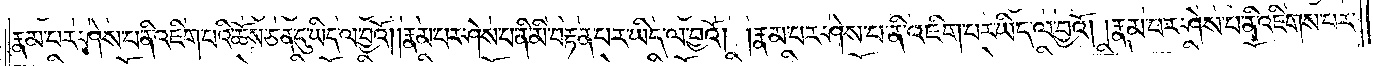རྣམ་པར་ཤེས་པ་ནི་འཇིག་པའི་ཆོས་ཅན་དུ་ཡིད་ལ་བྱའོ། །རྣམ་པར་ཤེས་པ་ནི་མི་བརྟན་པར་ཡིད་ལ་བྱའོ། །རྣམ་པར་ཤེས་པ་ནི་འཇིག་པར་ཡིད་ལ་བྱའོ། །རྣམ་པར་ཤེས་པ་ནི་འཇིགས་པར་
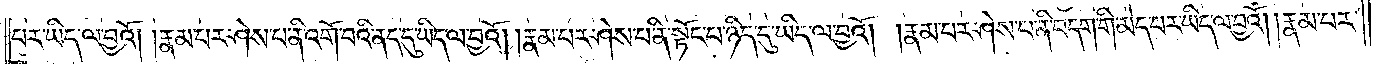པར་ཡིད་ལ་བྱའོ། །རྣམ་པར་ཤེས་པ་ནི་འགོ་བའི་ནད་དུ་ཡིད་ལ་བྱའོ། །རྣམ་པར་ཤེས་པ་ནི་སྟོང་པ་ཉིད་དུ་ཡིད་ལ་བྱའོ། །རྣམ་པར་ཤེས་པ་ནི་བདག་གི་མེད་པར་ཡིད་ལ་བྱའོ། །རྣམ་པར་
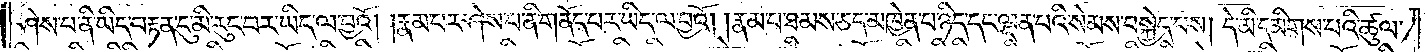ཤེས་པ་ནི་ཡིད་བརྟན་དུ་མི་རུང་བར་ཡིད་ལ་བྱའོ། །རྣམ་པར་ཤེས་པ་ནི་གནོད་པར་ཡིད་ལ་བྱའོ། །རྣམ་པ་ཐམས་ཅད་མཁྱེན་པ་ཉིད་དང་ལྡན་པའི་སེམས་བསྐྱེད་པས། དེ་མི་དམིགས་པའི་ཚུལ་
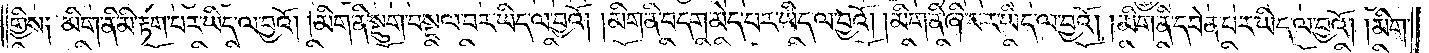གྱིས༏ མིག་ནི་མི་རྟག་པར་ཡིད་ལ་བྱའོ། །མིག་ནི་སྡུག་བསྔལ་བར་ཡིད་ལ་བྱའོ། མིག་ནི་བདག་མེད་པར་ཡིད་ལ་བྱའོ། །མིག་ནི་ཞི་བར་ཡིད་ལ་བྱའོ། །མིག་ནི་དབེན་པར་ཡིད་ལ་བྱའོ། །མིག་
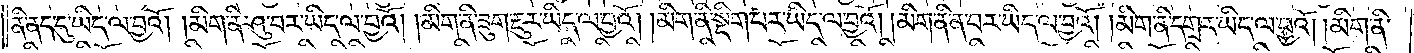ནི་ནད་དུ་ཡིད་ལ་བྱའོ། །མིག་ནི་ཤུ་བར་ཡིད་ལ་བྱའོ། །མིག་ནི་ཟུག་རྔུར་ཡིད་ལ་བྱའོ། །མིག་ནི་སྡིག་པར་ཡིད་ལ་བྱའོ། །མིག་ནི་ན་བར་ཡིད་ལ་བྱའོ། །མིག་ནི་དགྲར་ཡིད་ལ་བྱའོ། །མིག་ནི་
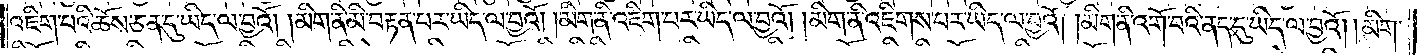འཇིག་པའི་ཆོས་ཅན་དུ་ཡིད་ལ་བྱའོ། །མིག་ནི་མི་བརྟན་པར་ཡིད་ལ་བྱའོ། །མིག་ནི་འཇིག་པར་ཡིད་ལ་བྱའོ། །མིག་ནི་འཇིགས་པར་ཡིད་ལ་བྱའོ། །མིག་ནི་འགོ་བའི་ནད་དུ་ཡིད་ལ་བྱའོ། །མིག་
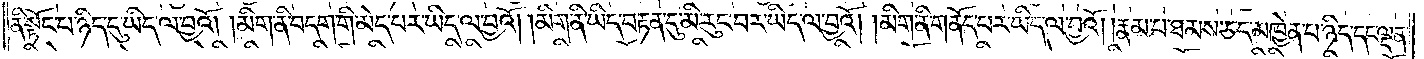ནི་སྟོང་པ་ཉིད་དུ་ཡིད་ལ་བྱའོ། །མིག་ནི་བདག་གི་མེད་པར་ཡིད་ལ་བྱའོ། །མིག་ནི་ཡིད་བརྟན་དུ་མི་རུང་བར་ཡིད་ལ་བྱའོ། །མིག་ནི་གནོད་པར་ཡིད་ལ་བྱའོ། །རྣམ་པ་ཐམས་ཅད་མཁྱེན་པ་ཉིད་དང་ལྡན་
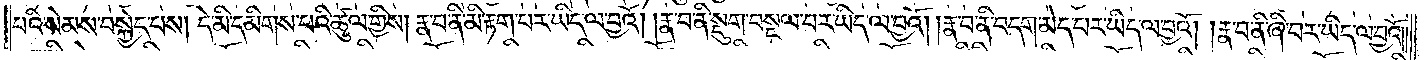པའི་སེམས་བསྐྱེད་པས། དེ་མི་དམིགས་པའི་ཚུལ་གྱིས། རྣ་བ་ནི་མི་རྟག་པར་ཡིད་ལ་བྱའོ། །རྣ་བ་ནི་སྡུག་བསྔལ་བར་ཡིད་ལ་བྱའོ། །རྣ་བ་ནི་བདག་མེད་པར་ཡིད་ལ་བྱའོ། །རྣ་བ་ནི་ཞི་བར་ཡིད་ལ་བྱའོ། །
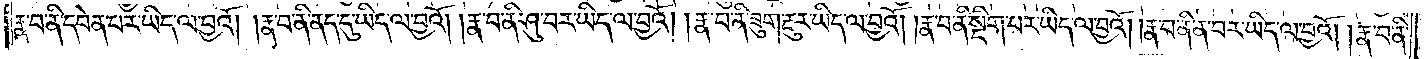རྣ་བ་ནི་དབེན་པར་ཡིད་ལ་བྱའོ། །རྣ་བ་ནི་ནད་དུ་ཡིད་ལ་བྱའོ། །རྣ་བ་ནི་ཤུ་བར་ཡིད་ལ་བྱའོ། །རྣ་བ་ནི་ཟུག་རྔུར་ཡིད་ལ་བྱའོ། །རྣ་བ་ནི་སྡིག་པར་ཡིད་ལ་བྱའོ། །རྣ་བ་ནི་ན་བར་ཡིད་ལ་བྱའོ། །རྣ་བ་ནི་
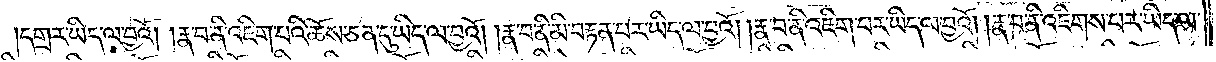དགྲར་ཡིད་ལ་བྱའོ། །རྣ་བ་ནི་འཇིག་པའི་ཆོས་ཅན་དུ་ཡིད་ལ་བྱའོ། །རྣ་བ་ནི་མི་བརྟན་པར་ཡིད་ལ་བྱའོ། །རྣ་བ་ནི་འཇིག་པར་ཡིད་ལ་བྱའོ། །རྣ་བ་ནི་འཇིགས་པར་ཡིད་ལ་
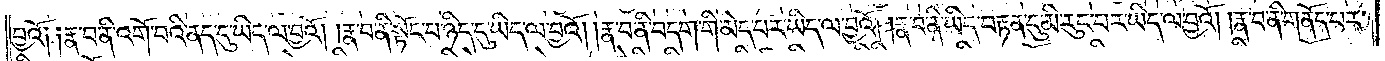བྱའོ༏ ༏རྣ་བ་ནི་འགོ་བའི་ནད་དུ་ཡིད་ལ་བྱའོ། །རྣ་བ་ནི་སྟོང་པ་ཉིད་དུ་ཡིད་ལ་བྱའོ། །རྣ་བ་ནི་བདག་གི་མེད་པར་ཡིད་ལ་བྱའོ། །རྣ་བ་ནི་ཡིད་བརྟན་དུ་མི་རུང་བར་ཡིད་ལ་བྱའོ། །རྣ་བ་ནི་གནོད་པར་
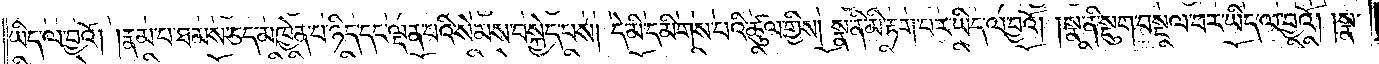ཡིད་ལ་བྱའོ། །རྣམ་པ་ཐམས་ཅད་མཁྱེན་པ་ཉིད་དང་ལྡན་པའི་སེམས་བསྐྱེད་པས། དེ་མི་དམིགས་པའི་ཚུལ་གྱིས། སྣ་ནི་མི་རྟག་པར་ཡིད་ལ་བྱའོ། །སྣ་ནི་སྡུག་བསྔལ་བར་ཡིད་ལ་བྱའོ། །སྣ་
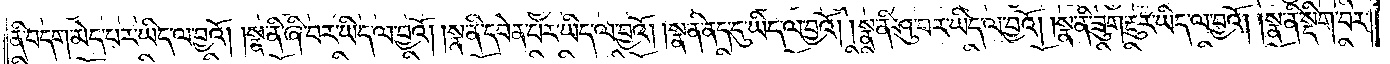ནི་བདག་མེད་པར་ཡིད་ལ་བྱའོ། །སྣ་ནི་ཞི་བར་ཡིད་ལ་བྱའོ། །སྣ་ནི་དབེན་པར་ཡིད་ལ་བྱའོ། །སྣ་ནི་ནད་དུ་ཡིད་ལ་བྱའོ། །སྣ་ནི་ཤུ་བར་ཡིད་ལ་བྱའོ། །སྣ་ནི་ཟུག་རྔུར་ཡིད་ལ་བྱའོ། །སྣ་ནི་སྡིག་པར་
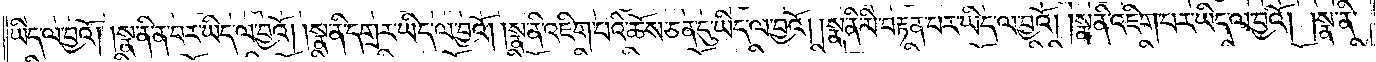ཡིད་ལ་བྱའོ། སྣ་ནི་ན་བར་ཡིད་ལ་བྱའོ། །སྣ་ནི་དགྲར་ཡིད་ལ་བྱའོ། །སྣ་ནི་འཇིག་པའི་ཆོས་ཅན་དུ་ཡིད་ལ་བྱའོ། །སྣ་ནི་མི་བརྟན་པར་ཡིད་ལ་བྱའོ། །སྣ་ནི་འཇིག་པར་ཡིད་ལ་བྱའོ། །སྣ་ནི་
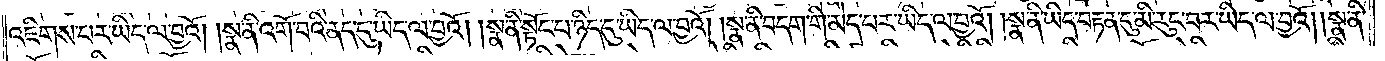འཇིགས་པར་ཡིད་ལ་བྱའོ། །སྣ་ནི་འགོ་བའི་ནད་དུ་ཡིད་ལ་བྱའོ། །སྣ་ནི་སྟོང་པ་ཉིད་དུ་ཡིད་ལ་བྱའོ། །སྣ་ནི་བདག་གི་མེད་པར་ཡིད་ལ་བྱའོ། །སྣ་ནི་ཡིད་བརྟན་དུ་མི་རུང་བར་ཡིད་ལ་བྱའོ། །སྣ་ནི་
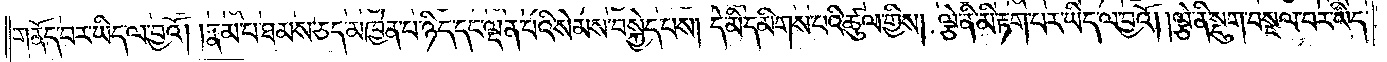གནོད་པར་ཡིད་ལ་བྱའོ། །རྣམ་པ་ཐམས་ཅད་མཁྱེན་པ་ཉིད་དང་ལྡན་པའི་སེམས་བསྐྱེད་པས། དེ་མི་དམིགས་པའི་ཚུལ་གྱིས། ལྕེ་ནི་མི་རྟག་པར་ཡིད་ལ་བྱའོ། །ལྕེ་ནི་སྡུག་བསྔལ་བར་ཡིད་
